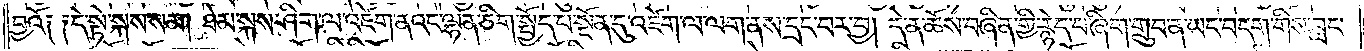བྱའོ༑ ༑དེ་སྟེ་སྐས་སམ། ཐེམ་སྐས་ཤིག་ལ་འཛེག་ནའང་ལྷན་ཅིག་སྤྱོད་པ་སྔོན་དུ་འཛེག་ལ་ལག་ནས་དྲང་བར་བྱ། དེ་ན་ཆོས་བཞིན་གྱི་རྙེད་པ་ཞིག་གྲུབ་ན་ཡང་བདག་གིས་བླང་
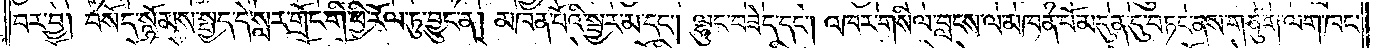བར་བྱ། བསོད་སྙོམས་སྤྱད་དེ་སླར་གྲོང་གི་ཕྱི་རོལ་ཏུ་བྱུང་ན། མཁན་པོའི་སྦྱར་མ་དང༌། ལྷུང་བཟེད་དང༌། འཁར་གསིལ་བླངས་ལ་མཁན་པོ་མདུན་དུ་བཏང་ནས་གཙུག་ལག་ཁང་
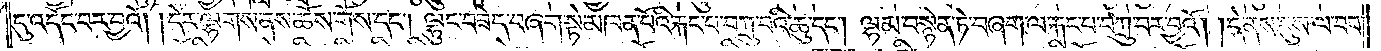དུ་འདོང་བར་བྱའོ། །དེར་ལྷགས་ནས་ཆོས་གོས་དང༌། ལྷུང་བཟེད་བཞག་སྟེ་མཁན་པོའི་རྐང་པ་བཀྲུ་བའི་ཆུ་དང༌། ལྷམ་བསྙེན་ཏེ་བཞག་པ་རྐང་པ་བཀྲུ་བར་བྱའོ། །དེ་ནས་དུས་ལ་བབ་
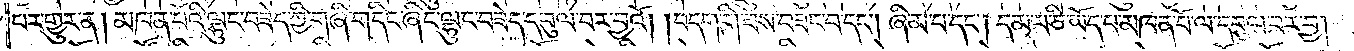པར་གྱུར་ན། མཁན་པོའི་ལྷུང་བཟེད་ཀྱི་གཞི་གདིང་ཞིང་ལྷུང་བཟེད་དབུལ་བར་བྱའོ། །བདག་གི་ཟས་བཟང་བ་དང༌། ཞིམ་པ་དང༌། དམ་པ་ཅི་ཡོད་པ་མཁན་པོ་ལ་དབུལ་བར་བྱ།
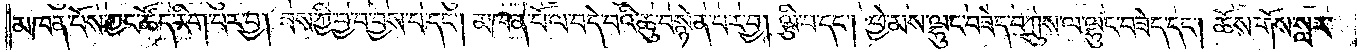མཁན་པོས་ཀྱང་ཚོད་རིག་པར་བྱ། ཟས་ཀྱི་བྱ་བ་བྱས་པ་དང༌། མཁན་པོ་ལ་བདེ་བའི་ཆུ་བསྙེན་པར་བྱ། ལྕི་བ་དང༌། ཕྱེ་མས་ལྷུང་བཟེད་བཀྲུས་ལ་ལྷུང་བཟེད་དང༌། ཆོས་གོས་སླར་
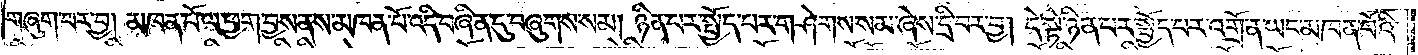གཞུག་པར་བྱ། མཁན་པོ་ལ་ཕྱག་བྱས་ནས་མཁན་པོ་འདི་བཞིན་དུ་བཞུགས་སམ། ཉིན་པར་སྤྱོད་པར་གཤེགས་སམ་ཞེས་དྲི་བར་བྱ། དེ་སྟེ་ཉིན་པར་སྤྱོད་པར་འགྲོ་ན་ཡང་མཁན་པོའི་
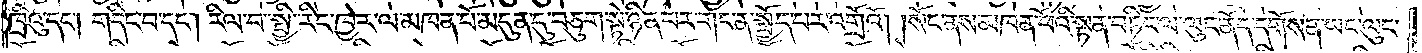ཁྲིའུ་དང༌། གདིང་བ་དང༌། རིལ་བ་སྤྱི་རིང་ཁྱེར་ལ་མཁན་པོ་མདུན་དུ་བཅུག་སྟེ་ཉིན་པར་གང་ན་སྤྱོད་པར་འགྲོའོ། །སོང་ནས་མཁན་པོའི་སྟན་བཏིང་ལ་ལུང་ནོད་དགོས་ན་ཡང་ལུང་
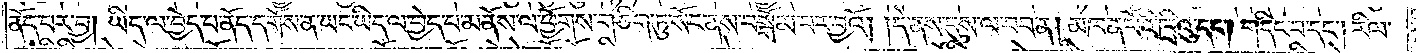ནོད་པར་བྱ། ཡིད་ལ་བྱེད་པ་ནོད་དགོས་ན་ཡང་ཡིད་ལ་བྱེད་པ་མནོས་ལ་ཕྱོགས་གཅིག་ཏུ་སོང་ནས་བསྒོམ་པར་བྱའོ། །དེ་ནས་དུས་ལ་བབ་ན། མཁན་པོའི་ཁྲིའུ་དང༌། གདིང་བ་དང༌། རིལ་
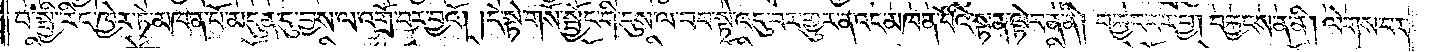བ་སྤྱི་རིང་ཁྱེར་ཏེ་མཁན་པོ་མདུན་དུ་བྱས་ལ་འགྲོ་བར་བྱའོ། །དེ་སྟེ་གསོ་སྦྱོང་གི་དུས་ལ་བབ་སྟེ་འདུ་བར་གྱུར་ནའང་མཁན་པོའི་སྟན་ལྟེ་བ་ན་ནི། བརྐྱང་བར་བྱ། བརྐྱངས་ན་ནི། ལེགས་པར་
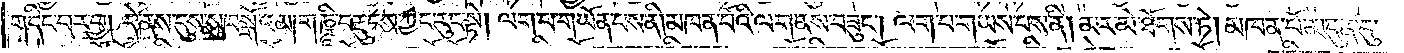གདིང་བར་བྱ། དེ་ནས་དུས་སུ་བསྒོའམ། གཎྜཱི་བརྡུངས་ཀྱང་རུང་སྟེ། ལག་པ་གཡོན་པས་ནི། མཁན་པོའི་ལག་ནས་བཟུང༌། ལག་པ་གཡས་པས་ནི། མར་མེ་ཐོགས་ཏེ། མཁན་པོ་མདུན་དུ་
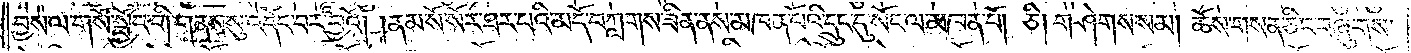བྱས་ལ་གསོ་སྦྱོང་གི་གནས་སུ་འདོང་བར་བྱའོ། །ན་མ་སོ་སོར་ཐར་པའི་མདོ་བཀླགས་ཟིན་ནས་མཁན་པོའི་དྲུང་དུ་སོང་ལ་མཁན་པོ། ཅི། གཤེགས་སམ། ཆོས་གསན་ཅིང་བཞུགས་
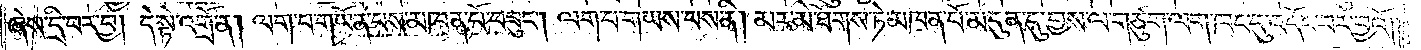ཞེས་དྲི་བར་བྱ། དེ་སྟེ་འགྲོ་ན། ལག་པ་གཡོན་པས་མཁན་པོ་བཟུང༌། ལག་པ་གཡས་པས་ནི། མར་མེ་ཐོགས་ཏེ་མཁན་པོ་མདུན་དུ་བྱས་ལ་གཙུག་ལག་ཁང་དུ་འདོང་བར་བྱའོ། །
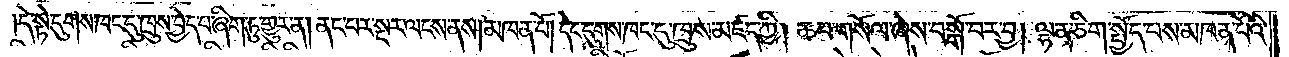དེ་སྟེ་དུགས་ཁང་དུ་ཁྲུས་བྱེད་པ་ཞིག་ཏུ་གྱུར་ན། ནང་པར་སྔར་ལངས་ནས། མཁན་པོ། དེང་དུགས་ཁང་དུ་ཁྲུས་མཛད་ཀྱི། ཆབ་གསོལ་ཞེས་བསྒོ་བར་བྱ། ལྷན་ཅིག་སྤྱོད་པས་མཁན་པོའི་
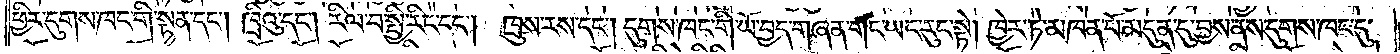ཕྱིར་དུགས་ཁང་དུ་སྟན་དང༌། ཁྲིའུ་དང༌། རིལ་བ་སྤྱི་རིང་དང༌། ཁྲུས་རས་དང༌། དུགས་ཁང་གི་ཡོ་བྱད་གཞན་གང་ཡང་རུང་སྟེ། ཁྱེར་ཏེ་མཁན་པོ་མདུན་དུ་བྱས་ནས་དུགས་ཁང་དུ་
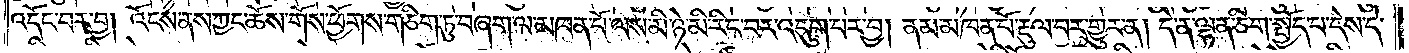འདོང་བར་བྱ། འོངས་ནས་ཀྱང་ཆོས་གོས་ཕྱོགས་གཅིག་ཏུ་བཞག་ལ་མཁན་པོ་ལས་མི་ཉེ་མི་རིང་བར་འདུག་པར་བྱ། ནམ་མཁན་པོ་རྡུལ་པར་གྱུར་ན། དེ་ན་ལྷན་ཅིག་སྤྱོད་པ་དེས་དེ་
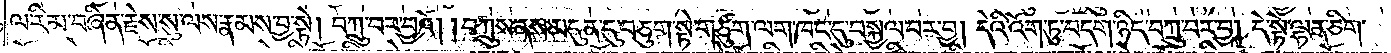ལ་རིམ་བཞིན་རྗེས་སུ་ལས་རྣམས་བྱ་སྟེ། བཀྲུ་བར་བྱའོ། །བཀྲུས་ནས་མདུན་དུ་བཅུག་སྟེ་གཙུག་ལག་ཁང་དུ་བསྐྱལ་བར་བྱ། དེའི་འོག་ཏུ་བདག་ཉིད་བཀྲུ་བར་བྱ། དེ་སྟེ་ལྷན་ཅིག་
